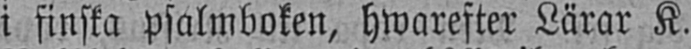i finska psalmboken, hwarefter Lärar K.
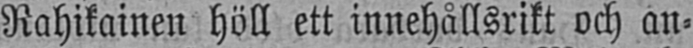Rahikainen höll ett innehållsrikt och an-
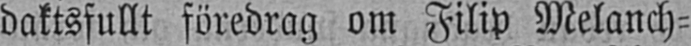daktsfullt föredrag om Filip Melanch-
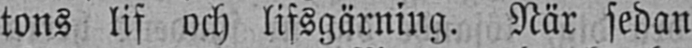tons lif och lifsgärning. När sedan
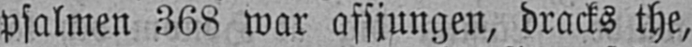psalmen 368 war afsjungen, dracks the,
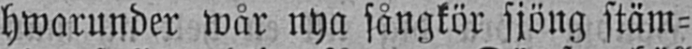hwarunder wår nya sångkör sjöng stäm-
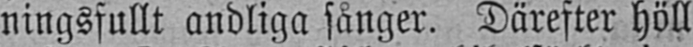ningsfullt andliga sånger. Därefter höll
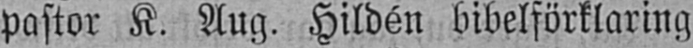pastor K. Aug. Hildén bibelförklaring
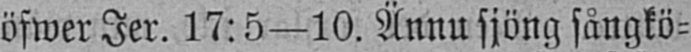öfwer Jer. 17:5—10. Ännu sjöng sångkö-
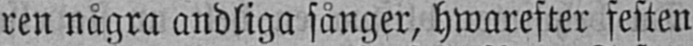ren några andliga sånger, hwarefter festen
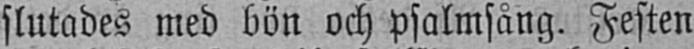slutades med bön och psalmsång. Festen
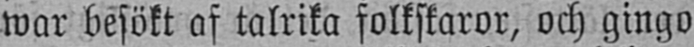war besökt af talrika folkskaror, och gingo
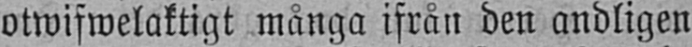otwifwelaktigt många ifrån den andligen
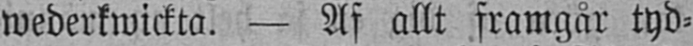wederkwickta. — Af allt framgår tyd-
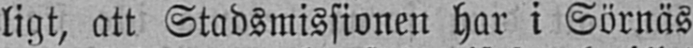ligt, att Stadsmissionen har i Sörnäs
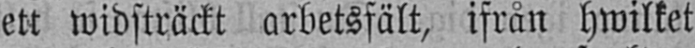ett widsträckt arbetsfält, ifrån hwilket
